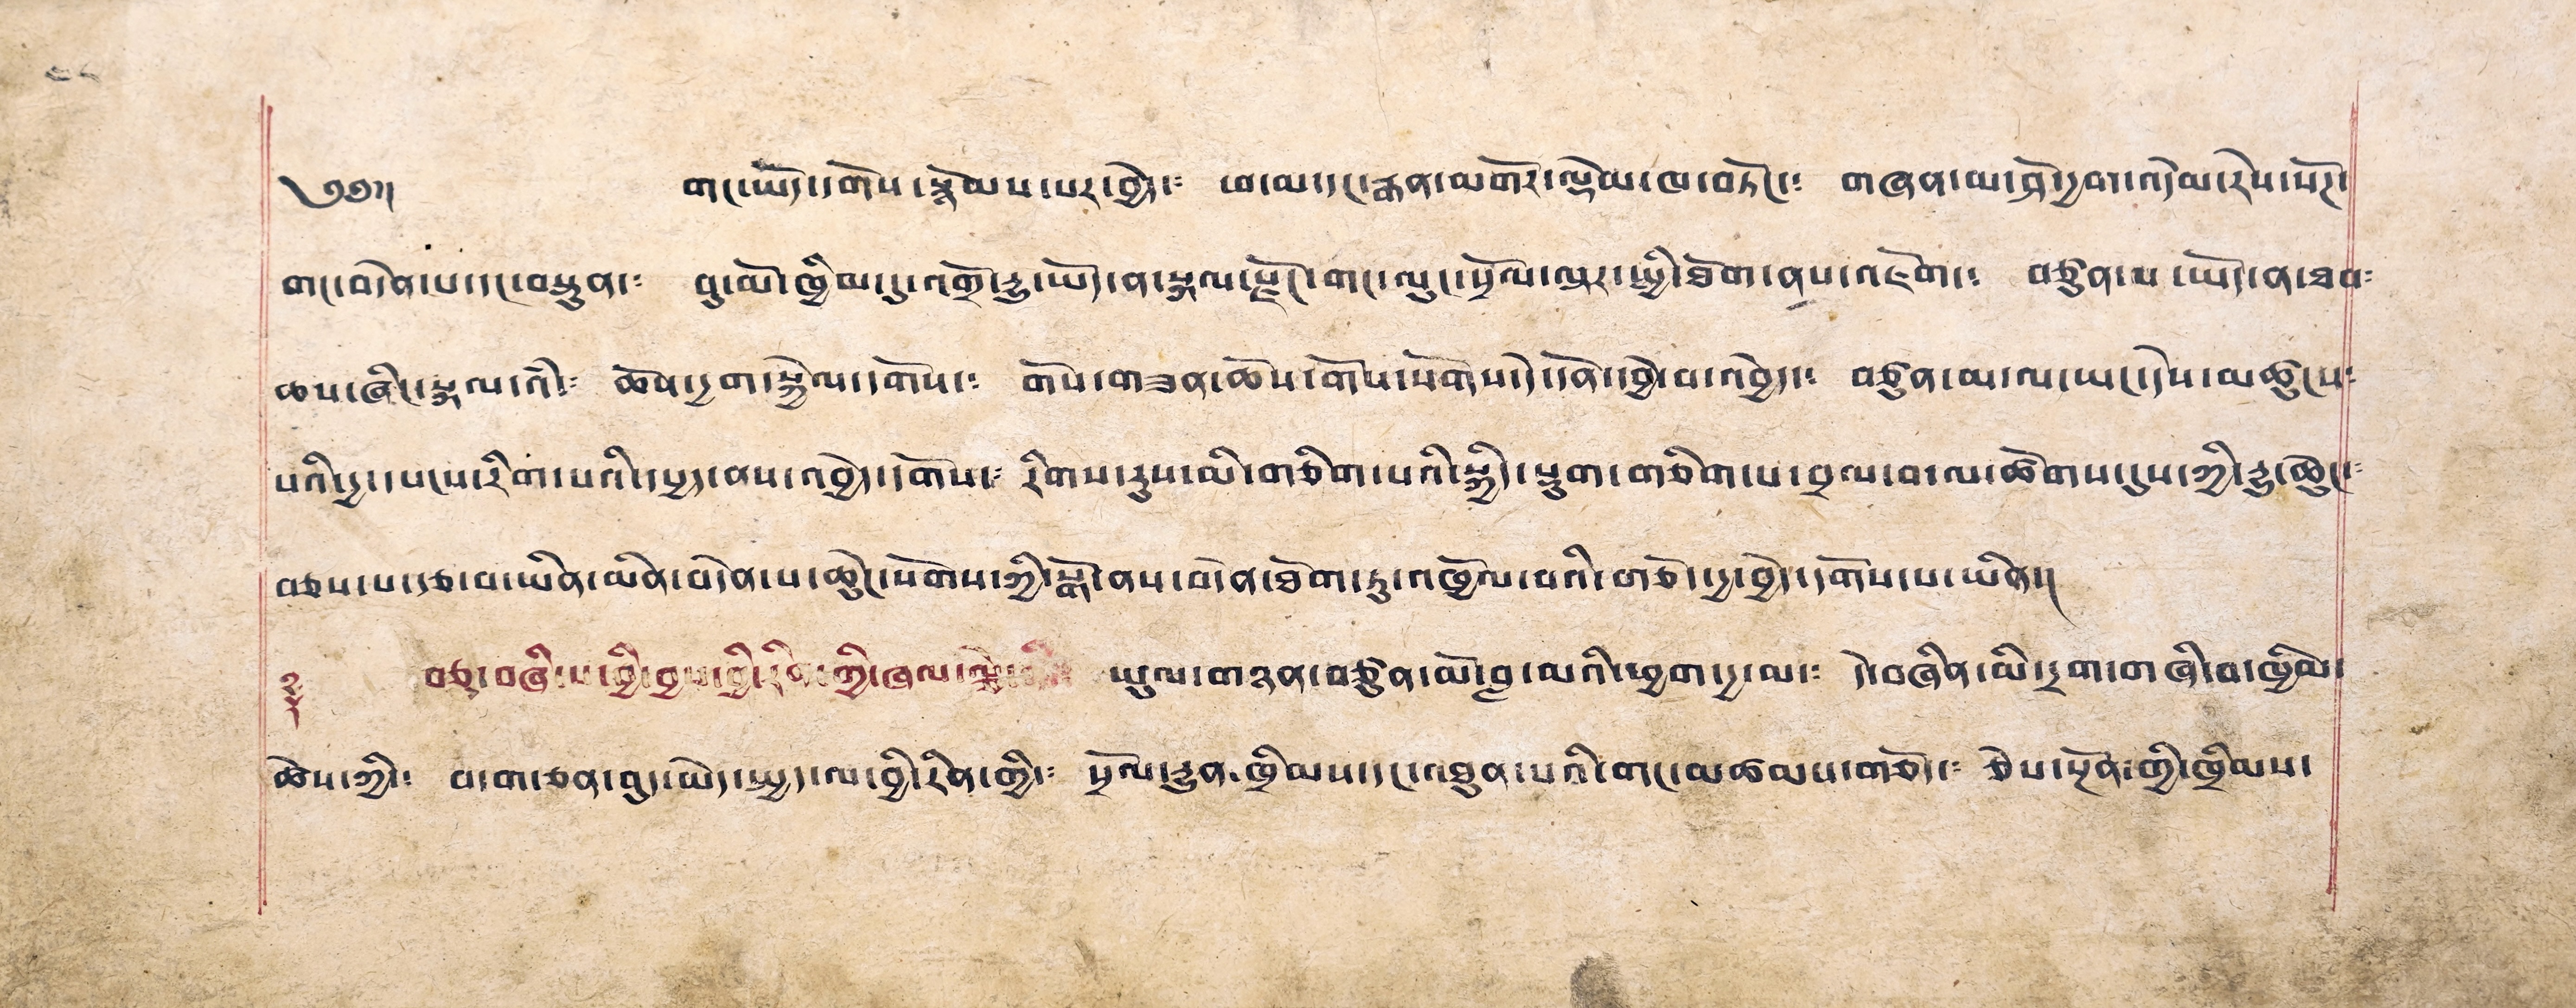༄༅།། གང་ཡོད་དགོས་སྙོམས་པར་བྱེད་༴ ཕ་མ་དང་རྒན་མགོར་ལྡེམ་ཁ་བཏོང་༴ གཞན་མ་ཤོ་དྱག་འདེབ་རེས་སོཊ་
གང་བདེན་པ་དང་བསྟུན་༴ བུ་མོ་ཁྱིམ་དུ་འགྲོ་རྒྱུ་ཡོད་ན་སྐལ་རྫོང་གང་ལུང་སྲོལ་ལྟར་སྤྱི་ཐོག་ནས་འཇོག་༴ བཙུན་པ་ཡོད་ན་ཐབ༴
ཆས་ཞིང་སྐལ་འཾ་༴ ཆོས་དྱག་སྐྱེལ་དགོས་༴ གོས་གཟན་ཆོས་གོས་སོགས་དེ་དོན་དབྱེ་བ་འབྱེད་༴ བཙུན་མ་ལ་ཡང་དེས་མཚུངས༴
པའི་དྱ་དཔངས་རིག་པའི་དཔྱད་ནས་འབྱེད་དགོས་༴ རིགས་རུས་མི་གཅིག་པའི་སྐྱིད་སྡུག་གཅིག་པ་བྲལ་བ་ལ་ཚེགས་དུས་ཀྱི་རྒྱུ་ཆེུང་༴
བཅས་པ་རྩ་བ་ཡིན་མིན་བདེན་པ་ཆེ་ཆུང་སོགས་ཀྱི་སྒོ་ནས་བདེན་ཐོག་ཏུ་འཁྱོལ་པའི་གཅོད་དྱ་བྱེད་དགོས་པ་ཡིན།།
༈ བཅུ་བཞི་པ་བྱི་བྱས་བྱི་རིན་ཀྱི་ཞལ་ལྕེ་ནི་༴ ཡུལ་གཉན་བཙུན་མོ་བླ་མའི་ཕྱག་དྱ་མ་༴ དེ་བཞིན་མི་དྲག་གཞི་བ་ཁྱིམ་
ཚེས་ཀྱི་༴ བདག་ཅན་བུད་མེད་སྤྱད་ལ་བྱི་རིན་གྱི་༴ སྲོལ་རྒྱུན་ཁྲིམས་དང་འཐུན་པའི་གང་མཚམས་གཅོད་༴ ཅེས་སྔོན་གྱི་ཁྲིམས་
